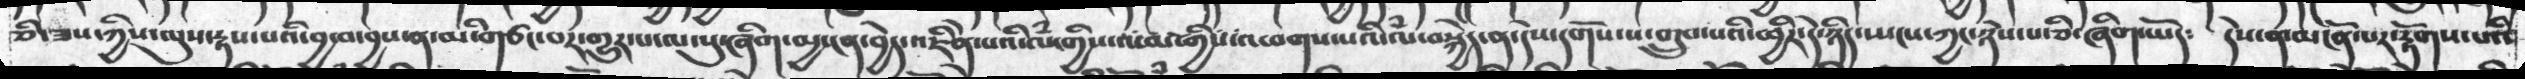ཅི་ཟས་ཀྱིས་ལུས་རྟས་པའི་བྱ་བ་བྱས་ན་མི་གཙང་བར་གྱུར་པ་ལ་སུ་ཞིག་མྱ་ངན་བྱེད་འཇིེན་པའི་ལཾ་གྱིས་ལམ་གྱིས་འཕགས་པའི་ལཾ་བསྐྱེད་ན་དེས་དགོས་པ་གྲུབ་པའི་ཕྱིར་དེ་ཉིད་སྤངས་ཀྱང་ཉེས་པ་ཅི་ཞིག་ཡོད༴  དེས་མ་མངོན་པར་རྟོགས་པའི
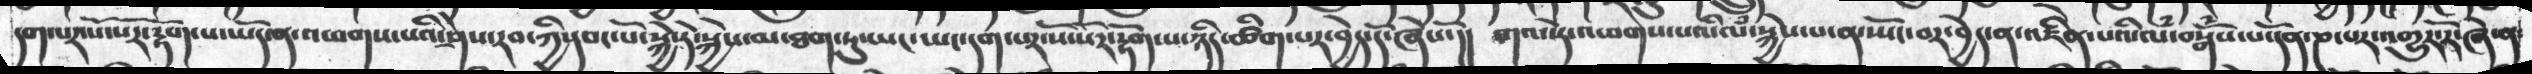དག་པར་སོ་སརོ་རྟོག་པ་ཡོད་ན་འཕགས་པའི་ཤེས་རབ་ཀྱི་དབང་པོ་སྐྱེ་ཏེ་སྐྱེས་མ་ཐག་ཏུ་ཡང་ཡང་དག་པར་སོ་སོར་རྟོག་པ་ཉིད་ཚིག་པར་བྱེད་དོ་ཞེསོ་།།  གལ་ཏེ་འཕགས་པའི་ལཾ་སྐྱེས་པ་ན་ཡོང་བར་བྱེད་ན་འཇིེན་པའི་ལཾ་བསྒོཾས་པ་དོན་ཎ་པར་འགྱུར་རོ་ཞེ་ན
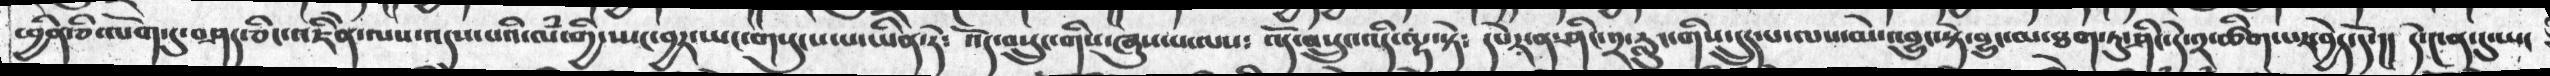ཕྱིན་ཅི་ལོག་དུ་བཤད་ཅིང་འཇིེན་ལས་འདས་པའི་ལཾ་གྱི་སྤང་བྱར་ཡང་གསུངས་པ་ཡིན་ཏེ༴ འོད་བསྲུང་གིས་ཞུས་པ་ལས༴  འདོ་བསྲུང་འདི་ལྟ་སྟེ༴ དཔེར་ན་ཤིང་༢་རླུང་གིས་དྲུད་པ་ལས་མེ་འབྱུང་སྟེ་བྱུང་མ་ཐག་ཏུ་ཤིང་དེ་༢་ཚིག་པར་བྱེད་དོ་།། དེ་༤ན་དུ་ཡང
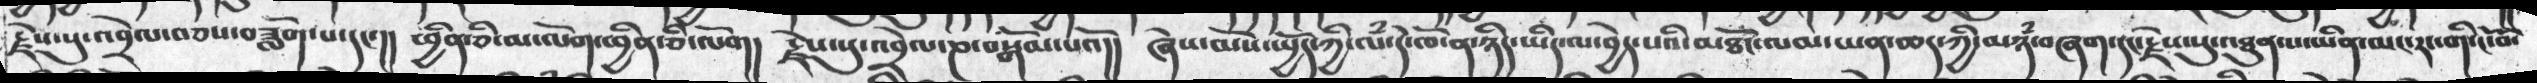རྗེས་སུ་འབྲེལ་བཅས་བཟློག་པ་དང་།། ཕྱིན་ཅི་མ་ལོག་ཕྱིན་ཅི་ལོག། རྗེས་སུ་འབྲེལ་ཎ་བསྒོམ་པའོ།།  ཞེས་མོས་སྤྱོད་ཀྱི་ལཾ་དེ་ཁོ་ན་ཉཱིད་ཡིད་ལ་བྱེད་པའི་མཐོང་ལམ་ཡན་ཆད་ཀྱི་མཉཾ་བཞག་དང་རྗེས་སུ་འཐུན་པ་ཡིན་མང་རང་གི་ངོ་བོ་
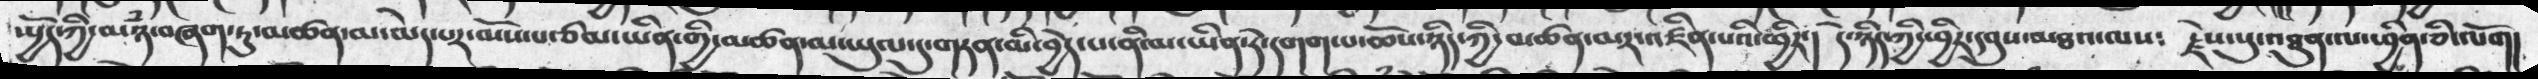སྤྱོད་ཀྱི་མཉཾ་བཞག་ཏུ་མཚན་མ་མེད་པར་མོས་པ་ཙམ་ཡིན་གྱི་མཚན་མ་ཡུལ་དུ་གཏན་མི་བྱེད་པ་ནི་མ་ཡིན་ཏེ་དགག་པ་ཆོས་ཉིད་ཀྱི་མཚན་མར་འཛིན་པའི་ཕྱིར་།  དེ་ཉིད་ཀྱི་ཕྱིར་དབུས་མཐའ་ལས༴  རྗེས་སུ་འཐུན་ལ་ཕྱིན་ཅི་ལོག།
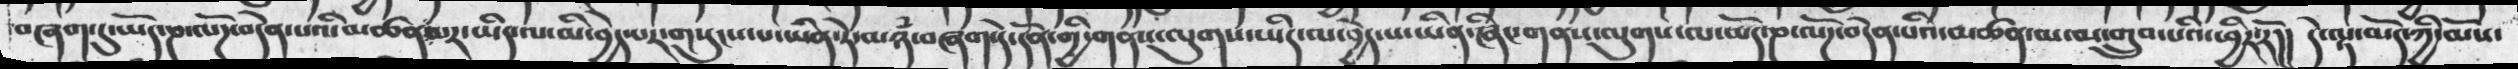བཞག་དུ་ཡོད་ཎ་ལོཌ་བདེན་པའི་མཚན་མར་ཡིད་ལ་མི་བྱེ་དཔར་གསུངས་པ་ཡིན་ཏེ་མཉཾ་བཞག་དེ་དོན་གྱི་གནས་ལུགས་ཡིད་ལ་བྱེད་པ་ཡིན་ཞིང་གནས་ལུགས་ལ་ཡོད་ཎ་ལོཌ་བདེན་པའི་མཚན་མ་མ་གྲུབ་པའི་ཕྱིར་རོ།། དེ་ལྟར་མོད་ཀྱི་མོས་
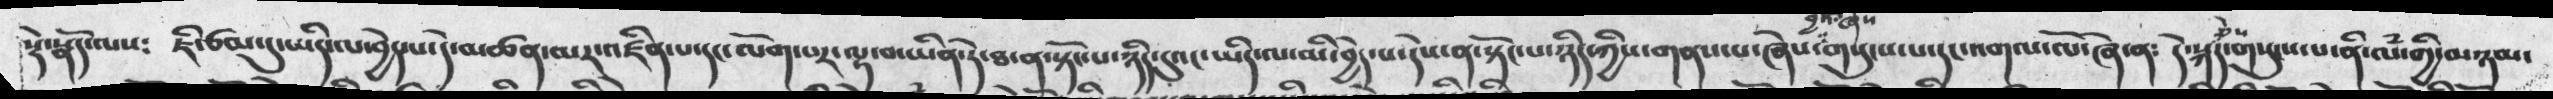སྟེ་སྣོད་ལས༴   ཇི་ཙམ་དུ་ཡིད་ལ་བྱེད་པ་དེ་མཚན་མར་འཛིན་པ་དང་ལོག་པར་ལྟ་བ་ཡིན་ཏེ་ཐ་ན་སྟོང་པ་ཉིད་དུའང་ཡིད་ལ་མི་བྱེད་པ་དེས་ན་སྟོང་པ་ཉིད་གྱིས་གནས་པ་ཞེས་བྱའི་ཞེས་གསུངས་པ་དང་འགལ་ལོ་ཞེ་ན༴  དེ་སྐད་ཅེས་གསུངས་པ་ནི་ལཾ་གྱི་མཉམ་
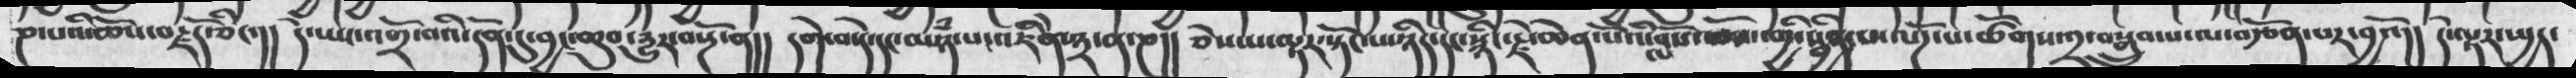ཎ་པའི་ཆོས་བརྗོད་ཅིང་།།  དེ་ཡང་འགྲོ་བའི་དོན་དུ་བྱང་ཆུབ་དྱུར་བསྔོ་ན།།  དགེ་བ་དེ་དང་མཉཾ་པ་འཇིེན་༣་ན་ཎ།།  ཅེས་པ་ལྟར་སྟོང་པ་ཉིད་དང་སྙིང་རྗེ་ཆེན་པོའི་བློས་  གྱི་སྦྱིན་པ་ལོཌ་པ་ཚོགས་༢་བསྒྲུབ་པ་ལ་བརྩོན་པར་བྱའོ།།  དེ་ལྟར་སྤྱད་
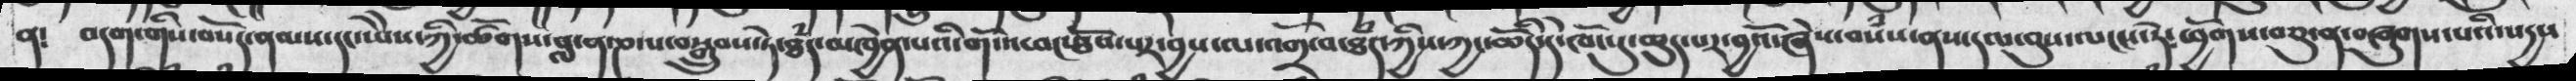ན༴  བདག་གིས་བསོད་ནམས་དང་ཡཻས་ཀྱི་ཚོགས་བླ་ན་ཎ་པ་བསྒྲུབས་ཏེ་ཐཾད་མཁྱེན་པའི་གོ་འཕང་ཐོབ་པར་བྱས་ལ་འགྲོ་བ་ཐཾད་ཀྱིས་ཀྱང་ཆོིད་དེ་ཁོད་དུ་ཆུད་པར་བྱའོ་ཞེས་བསཾས་ནས་དལ་བུས་ལངས་ཏེ༴ཕྱོགས་བཅུ་ན་བཞུགས་པའི་སདྱས
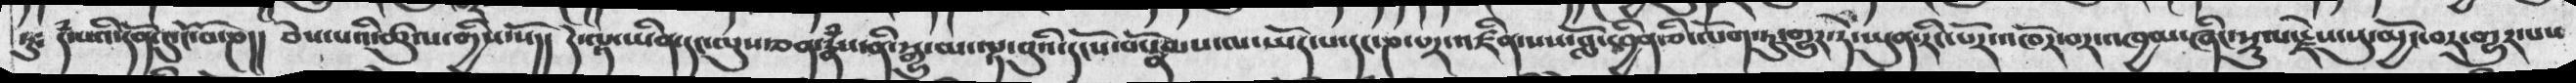ཏུ༴ དཾ་པའི་དོན་དུ་ངོ་བོ་ཎ།། ཅེས་པའི་ཚུལ་གྱིས་སོ།། དེ་ལྟ་ཡིན་དང་ལུས་ཅན་རྣཾས་ནི་སྒྱུ་མ་ལྟ་བུའི་དངོས་པོ་རྣམས་ལ་ཡོད་པ་དང་ཎ་པར་འཛིན་པས་བློ་ཕྱིན་ཅི་ལོག་ཏུ་གྱུར་ཏེ་ཡུན་རིང་པོར་འཁོར་བར་འཁྱམ་ཞིང་སྡུལ་རྗེས་སུ་མྱོང་བར་གྱུར་པས
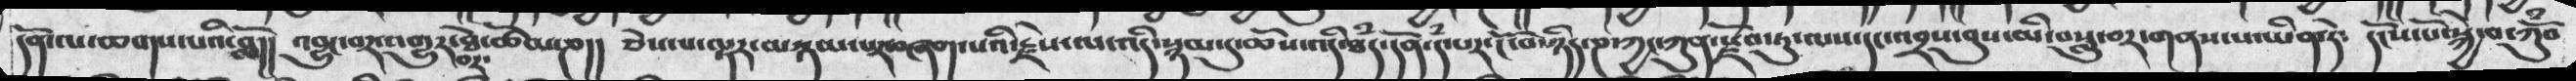དོན་ལ་ཆགས་པའི་བློ།།  འབྱུང་བར་འགྱུར་བར་ཐེ་ཚོམ་ཎ།།  ཅེས་པ་ལྟར་མཉམ་པར་བཞག་པའི་རྗེས་ལ་འདི་སྙམ་དུ་ཆོས་འདི་ཐཾད་དོན་དཾ་པར་ངོ་བོ་ཉིད་ཎ་ཀྱང་ཀུན་རྫོབ་ཏུ་ལས་དང་འབྲས་བུས་མི་བསླུ་བར་གནས་པ་ཡིན་ཏེ༴  དངོས་པོ་སྐྱེ་བ་ཀོུཾབ
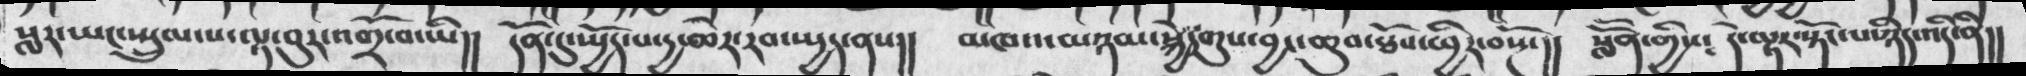སླར་ཡང་སྤྲུལ་པ་ལྟ་བུར་འགྲོ་བ་ཡི།། དོན་དུ་སྤྱོད་པ་དྱ་ཆེར་རབ་སྤྱད་ནས།།  མཁའ་མཉམ་སྐྱེདགུས་བྱང་ཆུབ་ཐོབ་ཕྱིར་བསྔོ་།།  སློོན་གྱིས༴ དེ་ལྟར་སྟོང་པ་ཉིད་འདི་ནི།།
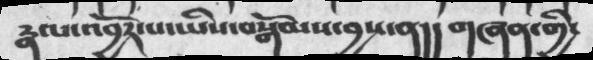རྣལ་འབྱོར་པ་ཡིས་བསྒོམས་བྱས་ན།། གཞན་གྱི་
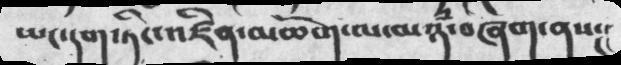ཡང་དག་ཏིང་འཛིན་མཆོག་ལ་མཉཾ་བཞག་ནས།།
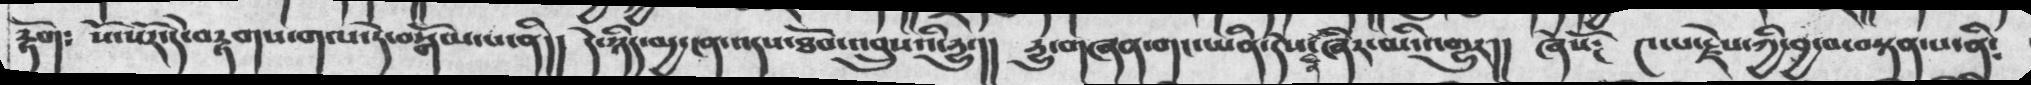རྟོག༴  སོ་སོར་དེ་བརྟགས་གལ་དེ་བསྒོམ་པ་ནི།།  དེ་ཉིད་མྱ་ངན་འདས་ཐོབ་འབྲུསའི་དྱུ་།།  དྱུ་གཞན་གང་ཡིན་དེས་ཞིར་མི་འགྱུར།།   ཞེསོ༑  ༤་པ་རྗེས་ཀྱི་བྱ་བ་བསྟན་པ་ནི༴
